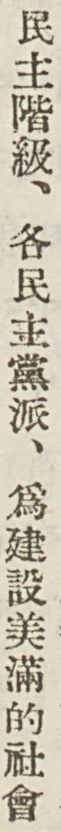民主階級、各民主黨派、爲建設美滿的社會
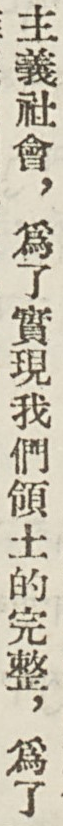主義社會，爲了實現我們領土的完整，爲了
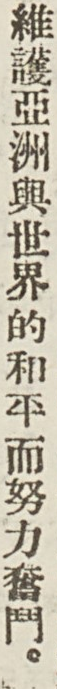維護亞洲與世界的和平而努力奮鬥。
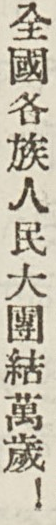全國各族人民大團結萬歲！
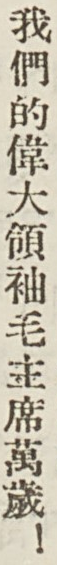我們的偉大領袖毛主席萬歲！
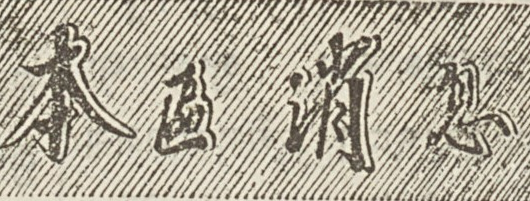本區消息
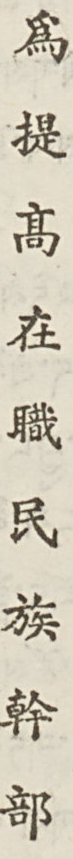爲提高在職民族幹部
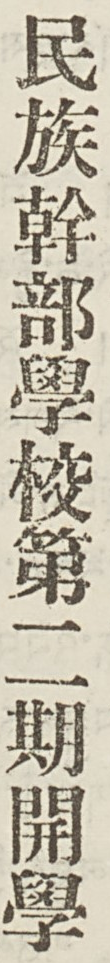民族幹部學校第二期開學
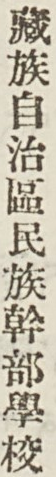藏族自治區民族幹部學校
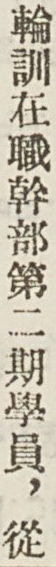輪訓在職幹部第二期學員，從
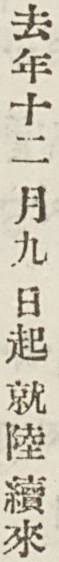去年十二月九日起 就陸續來
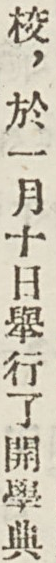校，於一月十日舉行了開學典
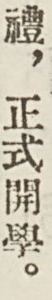禮，正式開學。
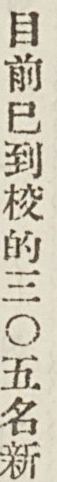目前已到校的三〇五名新
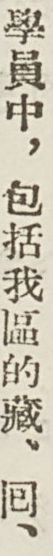學員中，包括我區的藏、囘、
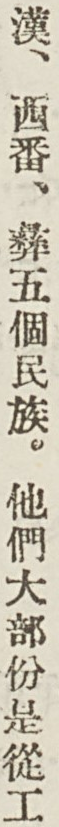漢、西番、彝五各民族。他們大部份是從工
